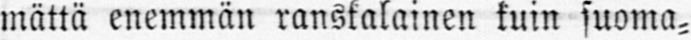mättä enemmän ranskalainen kuin suoma-
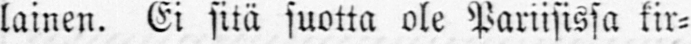lainen. Ei sitä suotta ole Pariisissa kir-
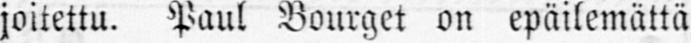joitettu. Paul Bourget on epäilemättä
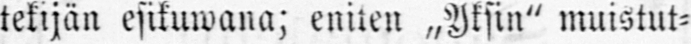tekijän esikuwana; eniten „Yksin" muistut-
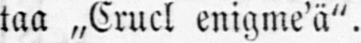taa „Crucl enigme'ä".
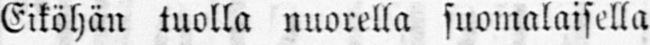Eiköhän tuolla nuorella suomalaisella
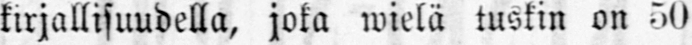kirjallisuudella, joka wielä tuskin on 50
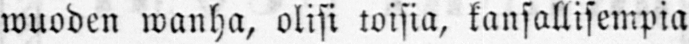wuoden wanha, olisi toisia, kansallisempia
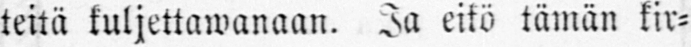teitä kuljettawanaan. Ja eikö tämän kir-
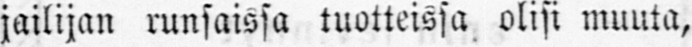jailijan runsaissa tuotteissa olisi muuta,
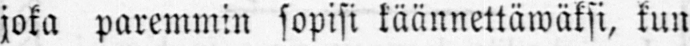joka paremmin sopisi käännettäwäksi, kun
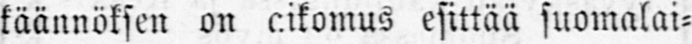käännöksen on aikomus esittää suomalai-
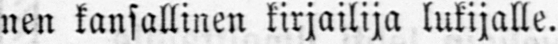nen kansallinen kirjailija lukijalle.
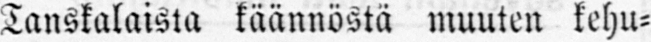Tanskalaista käännöstä muuten kehu-
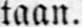taan.
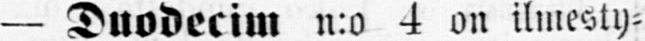— Duodecim n:o 4 on ilmesty-
